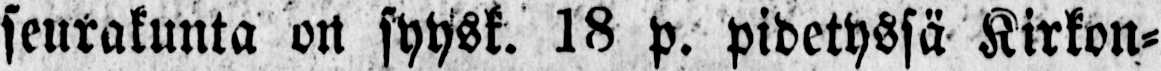seurakunta on syysk. 18 p. pidetyssä Kirkon-
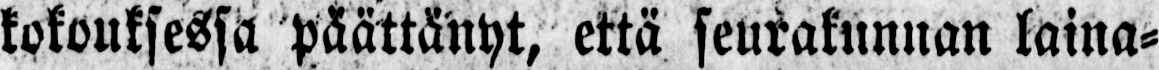kokouksessa päättänyt, että seurakunnan laina-
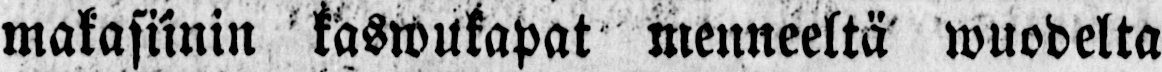makasiinin kaswukapat menneeltä wuodelta
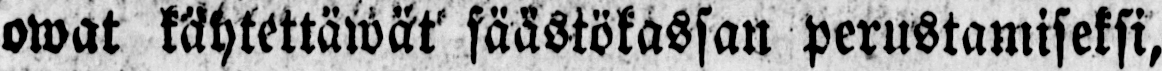owat käytettäwät säästökassan perustamiseksi,
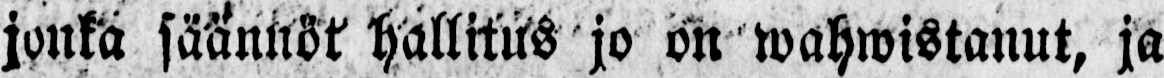jonka säännöt hallitus jo on wahwistanut, ja
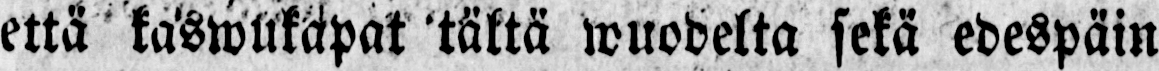että kaswukapat tältä wuodelta sekä edespäin
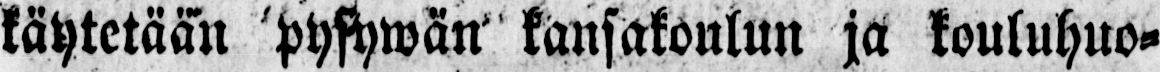käytetään pysywän kansakoulun ja kouluhuo-
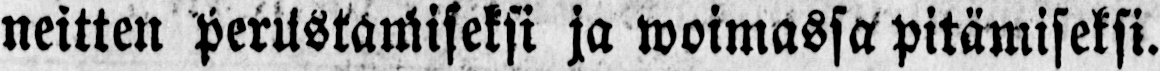neitten perustamiseksi ja woimassa Pitämiseksi.
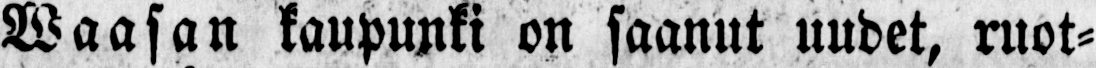Waasan kaupunki on saanut uudet, ruot-
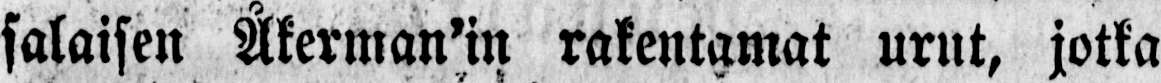salaisen Åkerman'in rakentamat urut, jotka
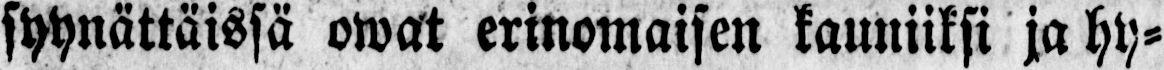syynättäissä owat erinomaisen kauniiksi ja hy-
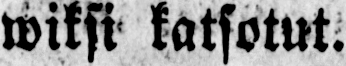wiksi katsotut.
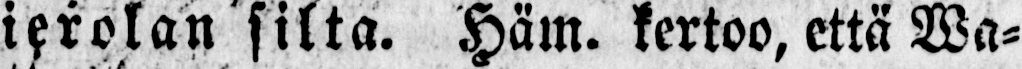Mierolan silta. Häm. kertoo, että Wa-
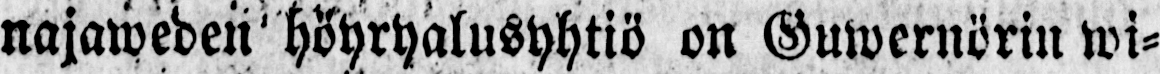najaweden höyryalusyhtiö on Guwernörin wi-
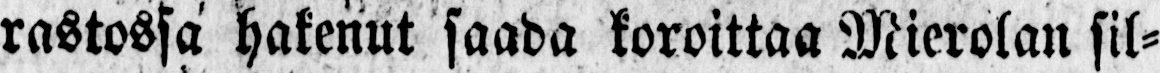rastossa hakenut saada koroittaa Mierolan sil-
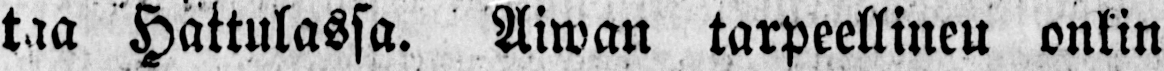taa Hattulassa. Aiwan tarpeellineu onkin
